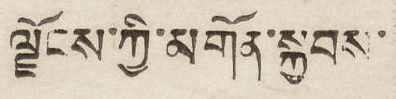ལྗོངས་ཀྱི་མགོན་སྐྱབས་
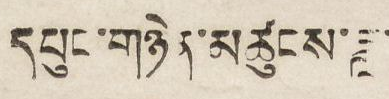དཔུང་གཉེན་མཚུངས་ཟླ་
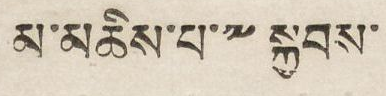མ་མཆིས་པ་༸སྐྱབས་
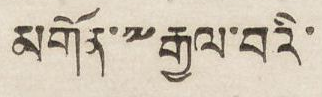མགོན་༸རྒྱལ་བའི་
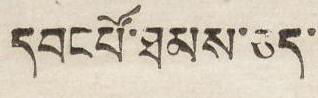དབངཔོ་ཐམས་ཅད་
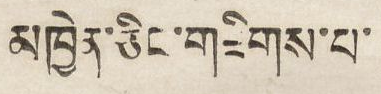མཁྱེན་ཅིང་གཟིགས་པ་
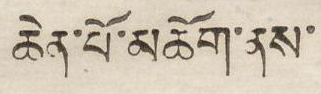ཆེན་པོ་མཆོག་ནས་
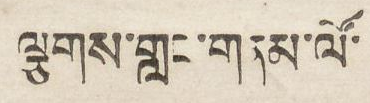ལྕགས་གླང་གནམ་ལོ་
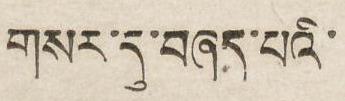གསར་དུ་བཞད་པའི་
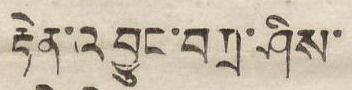རྟེན་འབྱུང་བཀྲ་ཤིས་
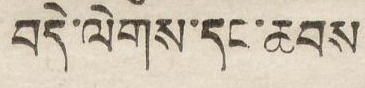བདེ་ལེགས་དང་ཆབས་
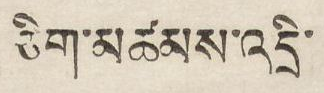ཅིག་མཚམས་འདྲི་
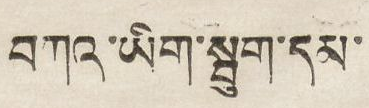བཀའ་ཡིག་སྦུག་དམ་
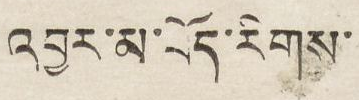འབྱར་མ་བོད་རིགས་
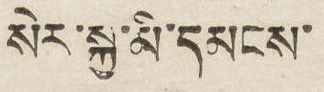སེར་སྐྱ་མི་དམངས་
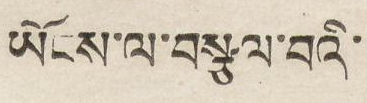ཡོངས་ལ་བསྩལ་བའི་
